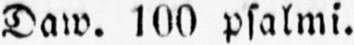Daw. 100 psalmi.
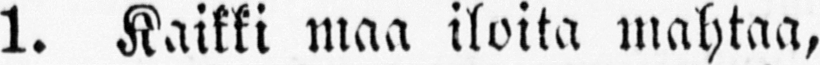1. Kaikki maa iloita mahtaa,
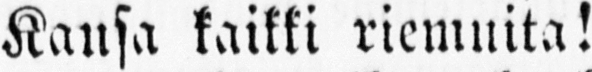Kansa kaikki riemuita!
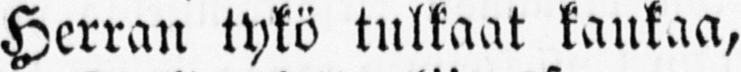Herran tykö tulkaat kaukaa,
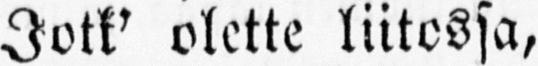Jotk' olette liitossa,
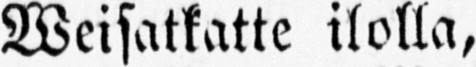Weisatkatte ilolla,
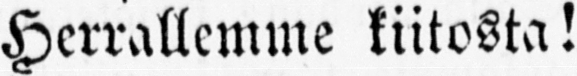Herrallemme kiitosta!
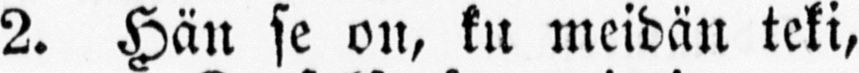2. Hän se on, ku meidän teki,
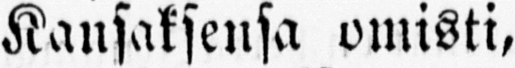Kansaksensa omisti,
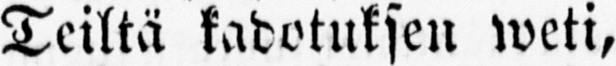Teiltä kadotuksen weti,
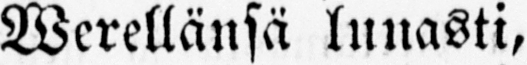Werellänsä lunasti,
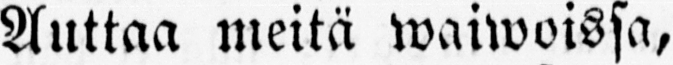Auttaa meitä waiwoissa,
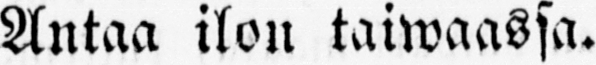Antaa ilon taiwaassa.
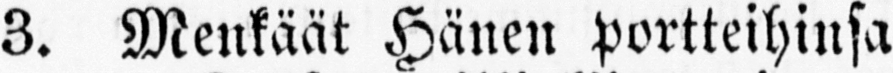3. Menkäät Hänen portteihinsa
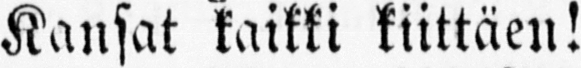Kansat kaikki kiittäen!
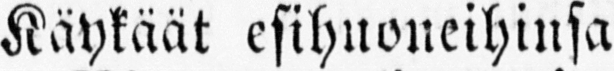Kaykäät esihuoneihinsa
